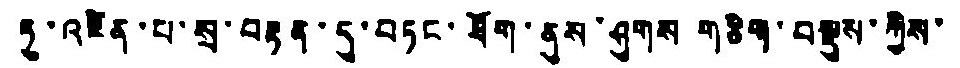ཏུ་འཛིན་པ་སྲ་བརྟན་དུ་བཏང་ཐོག་ནུས་ཤུགས གཅིག་བསྡུས་ཀྱིས་
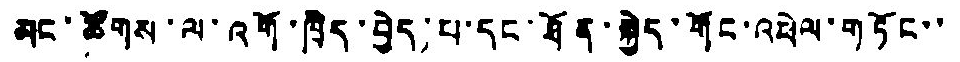མང་ཚོགས་ལ་འགོ་ཁྲིད་བྱེད་པ་དང་ཐོན་སྐྱེད་གོང་འཕེལ་གཏོང་་
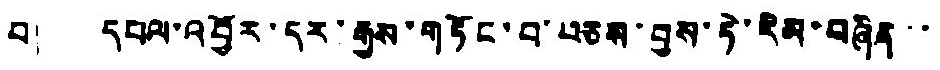བ། དཔལ་འབྱོར་དར་རྒྱས་གཏོང་བ་བཅས་བྱས་ཏེ་རིམ་བཞིན་་
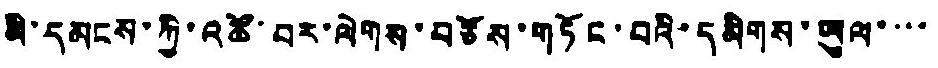མི་དམངས་ཀྱི་འཚོ་བར་ལེགས་བཅོས་གཏོང་བའི་དམིགས་ཡུལ་་་་
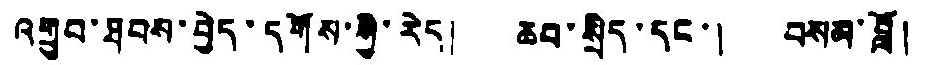འགྲུབ་ཐབས་བྱེད་དགོས་ཀྱི་རེད། ཆབ་སྲིད་དང་། བསམ་བློ།
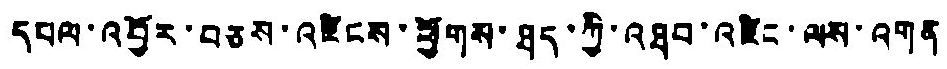དཔལ་འབྱོར་བཅས་འཛིངས་ཕྱོགས་ཐད་ཀྱི་འཐབ་འཛིང་ལས་འགན
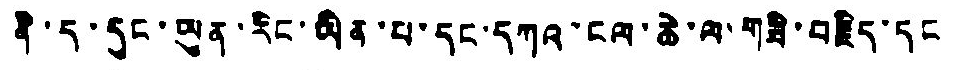ནི་ད་དུང་ཡུན་རིང་ཡིན་པ་དང་དཀའ་ངལ་ཆེ་ལ་གཟི་བརྗིད་དང
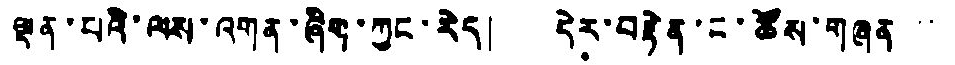ལྡན་པའི་ལས་འགན་ཞིག་ཀྱང་རེད། དེར་བརྟེན་ང་ཚོས་གཞན་་
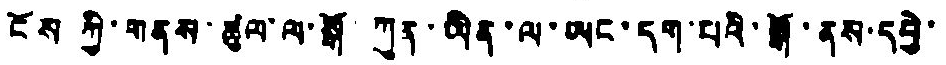ངོས ཀྱི་གནས་ཚུལ་ལ་སྒོ་ཀུན་ཡིན་ལ་ཡང་དག་པའི་སྒོ་ནས་དབྱེ་
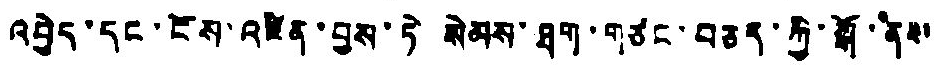འབྱེད་དང་ངོས་འཛིན་བྱས་ཏེ སེམས་ཐག་གཙང་བཅད་ཀྱི་སྒོ་ནོས
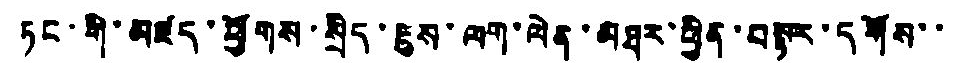ཏང་གི་མཛད་ཕྱོགས་སྲིད་ཇུས་ལག་ལེན་མཐར་ཕྱིན་བསྟར་དགོས་་
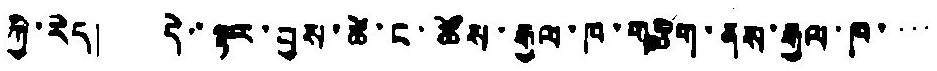ཀྱི་རེད། དེ་ལྟར་བྱས་ཚེ་ང་ཚོས་རྒྱལ་ཁ་གཅིག་ནས་རྒྱལ་ཁ་་་་
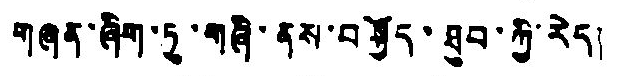གཞན་ཞིག་ཏུ་གཞི་ནས་བསྐྱོད་ཐུབ་ཀྱི་རེད།
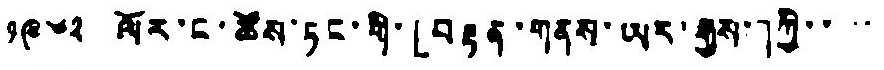༡༩༦༢ ལོར་ང་ཚོས་ཏང་གི་「བརྟན་གནས་ཡར་རྒྱས་」ཀྱི་་་་་
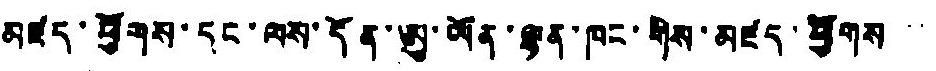མཛད་ཕྱོགས་དང་ལས་དོན་ཨུ་ཡོན་ལྷན་ཁང་གིས་མཛད་ཕྱོགས་་
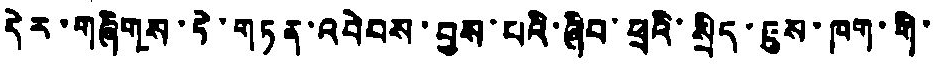དེར་གཞིགས་ཏེ་གཏན་འབེབས་བྱས་པའི་ཞིབ་ཕྲའི་སྲིད་ཇུས་ཁག་གི་
